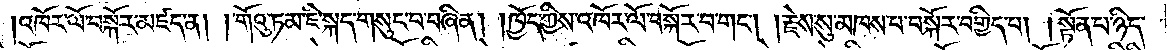འཁོར་ལོ་བསྐོར་མཛད་ན། །གོའུ་ཏ་མ་ཇི་སྐད་གསུང་བ་བཞིན། །ཁྱོད་ཀྱིས་འཁོར་ལོ་བསྐོར་བ་གང༌། །རྗེས་སུ་མཁས་པ་བསྐོར་བགྱིད་པ། །སྟོན་པ་ཉིད
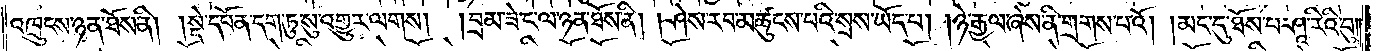འཁྲུངས་ཉན་ཐོས་ནི། །སྡེ་དཔོན་དག་ཏུ་སུ་འགྱུར་ལགས། །བྲམ་ཟེ་ང་ལ་ཉན་ཐོས་ནི། །ཤེས་རབ་མཚུངས་པའི་སྲས་ཡོད་པ། །ཉེ་རྒྱལ་ཞེས་ནི་གྲགས་པའོ། །མང་དུ་ཐོས་པ་ཤཱ་རིའི་བུ། །
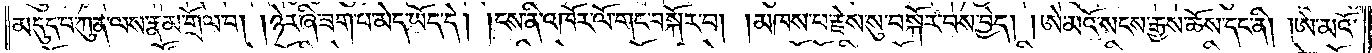མདུད་པ་ཀུན་ལས་རྣམ་གྲོལ་བ། །ཉེར་ཞི་ཟག་པ་མེད་ཡོད་དེ། །ངས་ནི་འཁོར་ལོ་གང་བསྐོར་བ། །མཁས་པ་རྗེས་སུ་བསྐོར་བས་བྱེད། །ཨེ་མའོ་སངས་རྒྱས་ཆོས་དང་ནི། །ཨེ་མའོ་
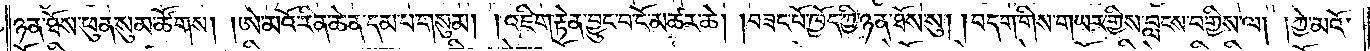ཉན་ཐོས་ཕུན་སུམ་ཚོགས། །ཨེ་མའོ་རིན་ཆེན་དམ་པ་གསུམ། །འཇིག་རྟེན་བྱུང་བ་ངོ་མཚར་ཆེ། །བཟང་པོ་ཁྱོད་ཀྱི་ཉན་ཐོས་སུ། །བདག་གིས་གཡར་གྱིས་བླངས་བགྱིས་ལ། །ཀྱེ་མའོ་
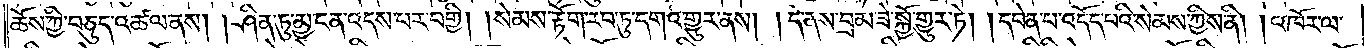ཆོས་ཀྱི་བཅུད་འཚལ་ནས། །ཤིན་ཏུ་མྱ་ངན་འདས་པར་བགྱི། །སེམས་རྟོག་རབ་ཏུ་དགའ་གྱུར་ནས། །དེ་ནས་བྲམ་ཟེ་སྐྱོ་གྱུར་ཏེ། །དབེན་པ་འདོད་པའི་སེམས་ཀྱིས་ནི། །འཁོར་ལ་
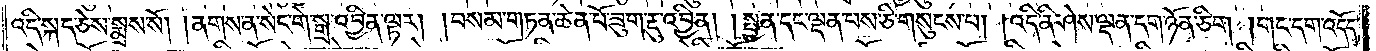འདི་སྐད་ཅེས་སྨྲས་སོ། །ནགས་ན་སེང་གེ་སྒྲ་འབྱིན་ལྟར། །བསམ་གཏན་ཆེན་པོ་ཟུག་རྔུ་འབྱིན། །སྤྱན་དང་ལྡན་པས་ཅི་གསུངས་པ། །འདི་ནི་ཤེས་ལྡན་དག་ཉོན་ཅིག །གང་དག་འདོད་
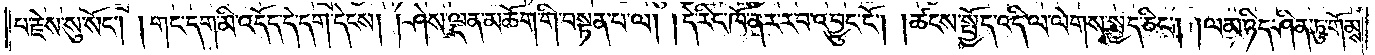པ་རྗེས་སུ་སོང༌། །གང་དག་མི་འདོད་དེ་དག་དེངས། །ཤེས་ལྡན་མཆོག་གི་བསྟན་པ་ལ། །དེ་རིང་ཁོ་ནར་རབ་འབྱུང་ངོ༌། །ཚངས་སྤྱོད་འདི་ལ་ལེགས་སྤྱད་ཅིང༌། །ལམ་ཉིད་ཤིན་ཏུ་གོམས་
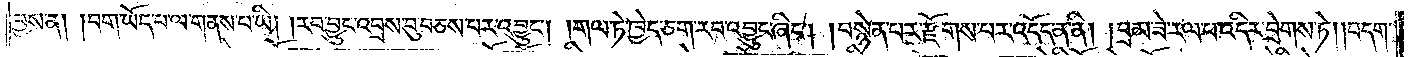བྱས་ན། །བག་ཡོད་པ་ལ་གནས་པ་ཡི། །རབ་བྱུང་འབྲས་བུ་བཅས་པར་འབྱུང༌། །གལ་ཏེ་ཁྱེད་ཅག་རབ་འབྱུང་ཞིང༌། །བསྙེན་པར་རྫོགས་པར་འདོད་ན་ནི། །བྲམ་ཟེ་རལ་པ་འདིར་བྲེགས་ཏེ། །བདག་
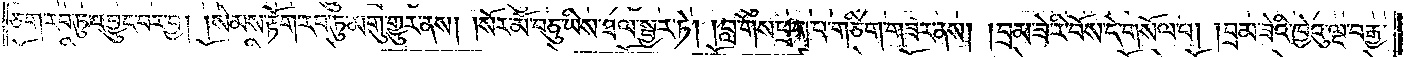ཅག་རབ་ཏུ་འབྱུང་བར་བྱ། །སེམས་རྟོག་རབ་ཏུ་མགུ་གྱུར་ནས། །སོར་མོ་བཅུ་ཡིས་ཐལ་སྦྱར་ཏེ། །བླ་གོས་ཕྲག་པ་གཅིག་གཟར་ནས། །བྲམ་ཟེ་རི་བོས་དེ་གསོལ་པ། །བྲམ་ཟེའི་ཁྱེའུ་ལྔ་བརྒྱ་
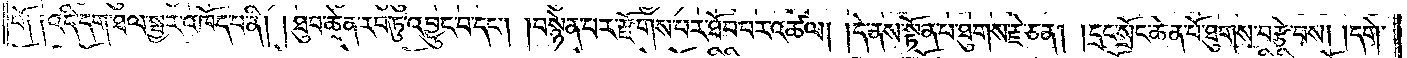པོ༑ ༑འདི་དག་ཐལ་སྦྱར་འཁོད་པ་ནི། །ཐུབ་ཆེན་རབ་ཏུ་འབྱུང་བ་དང༌། །བསྙེན་པར་རྫོགས་པར་ཐོབ་པར་འཚལ། །དེ་ནས་སྟོན་པ་ཐུགས་རྗེ་ཅན། །དྲང་སྲོང་ཆེན་པོ་ཐུགས་བརྩེ་བས། །དགེ་
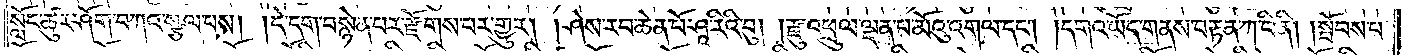སློང་ཚུར་ཤོག་བཀའ་སྩལ་པས། །དེ་དག་བསྙེན་པར་རྫོགས་པར་གྱུར། །ཤེས་རབ་ཆེན་པོ་ཤཱ་རིའི་བུ། །རྫུ་འཕྲུལ་ལྡན་པ་མོའུ་འགལ་དང༌། །དགའ་ཡོད་གནས་བརྟན་ཀ་པི་ནི། །སྤོབས་པ་
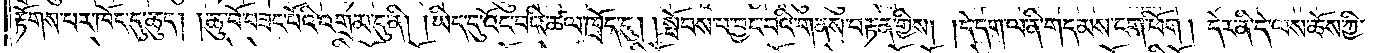རྟོགས་པར་ཁོང་དུ་ཆུད། །ཆུ་བོ་བཟང་པོའི་འགྲམ་དུ་ནི། །ཡིད་དུ་འོང་བའི་ཚལ་ཁྲོད་དུ། །སྤོབས་པ་བྱང་བའི་གནས་བརྟན་གྱིས། །དེ་དག་ལ་ནི་གདམས་ངག་ཕོག །དེར་ནི་དེ་ལས་ཆོས་ཀྱི་
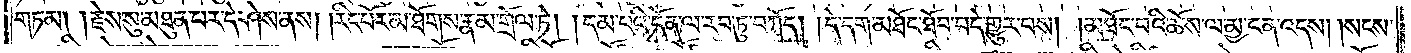གཏམ། །རྗེས་སུ་མཐུན་པར་དེ་ཤེས་ནས། །རིང་པོར་མ་ཐོགས་རྣམ་གྲོལ་ཏེ། །དམ་པའི་དོན་ལ་རབ་ཏུ་བཀོད། །དེ་དག་མཐོང་ཐོབ་བདེ་གྱུར་པས། །མཐོང་བའི་ཆོས་ལ་མྱ་ངན་འདས། །སངས་
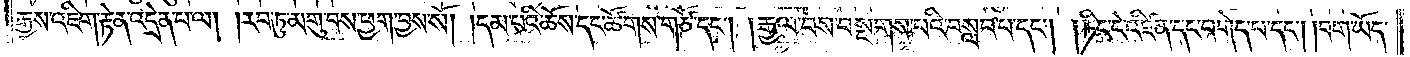རྒྱས་འཇིག་རྟེན་འདྲེན་པ་ལ། །རབ་ཏུ་མགུ་བས་ཕྱག་བྱས་སོ། །དམ་པའི་ཆོས་དང་ཚོགས་གཙོ་དང༌། །རྒྱལ་བས་བསྔགས་པའི་བསླབ་པ་དང༌། །ཏིང་ངེ་འཛིན་དང་བགེད་པ་དང༌། །བག་ཡོད་
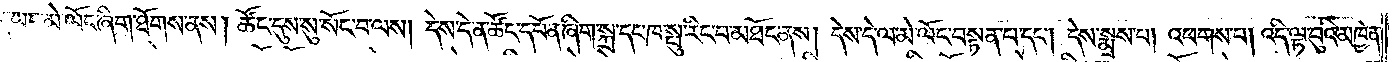དེ་ཡང་མེ་ལོང་ཞིག་ཐོགས་ནས། ཚོང་དུས་སུ་སོང་བ་ལས། དེས་དེ་ན་ཚོང་དཔོན་ཞིག་སྐྲ་དང་ཁ་སྤུ་རིང་བ་མཐོང་ནས། དེས་དེ་ལ་མེ་ལོང་བསྟན་པ་དང༌། དེས་སྨྲས་པ། འཕགས་པ། འདི་ལྟ་བུའི་མཁྱེན་
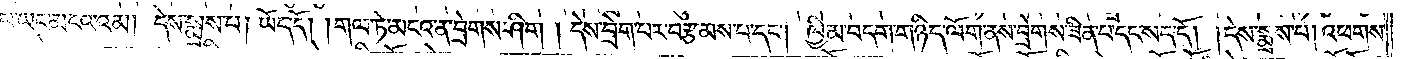པ་ཡང་མངའ་འམ། དེས་སྨྲས་པ། ཡོད་དོ། །གལ་ཏེ་མངའ་ན་བྲེགས་ཤིག །དེས་བྲེག་པར་བརྩམས་པ་དང༌། ཁྱིམ་བདག་གཉིད་ལོག་ནས་བྲེགས་ཟིན་པ་དང་སད་དོ། །དེས་སྨྲས་པ། འཕགས་
